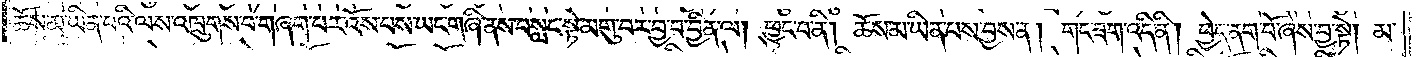ཆོས་མ་ཡིན་པའི་ལས་འཁྲུགས་པ་གཞག་པར་འོས་པས་ཡང་གཞི་ནས་བསླང་སྟེ་མགུ་བར་བྱ་བ་བྱིན་ལ། ཕྱུང་བ་ནི། ཆོས་མ་ཡིན་པས་བྱས་ན། གང་ཟག་འདི་ནི། ཕྱེད་ནག་པོ་ཞེས་བྱ་སྟེ། མ་
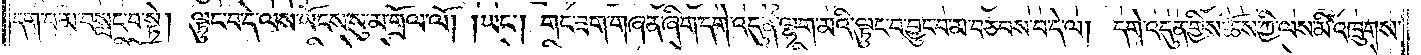དག་པ་མ་བསླང་བ་སྟེ། ལྟུང་བ་དེ་ལས་ཡོངས་སུ་མ་གྲོལ་ལོ། །ཡང༌། གང་ཟག་གཞན་ཞིག་དགེ་འདུན་ལྷག་མའི་ལྟུང་བ་བྱུང་བ་མ་བཅབས་པ་དེ་ལ། དགེ་འདུན་གྱིས་ཆོས་ཀྱི་ལས་མི་འཁྲུགས་
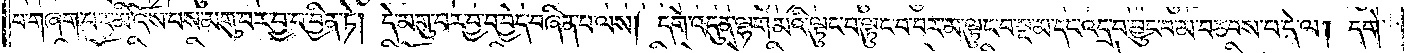པ་གཞག་པར་མི་འོས་པས་མགུ་བར་བྱ་བ་བྱིན་ཏེ། དེ་མགུ་བར་བྱ་བ་བྱེད་བཞིན་པ་ལས། དགེ་འདུན་ལྷག་མའི་ལྟུང་བ་ལྟུང་བ་བར་མ་ལྟུང་བ་སྔ་མ་དང་འདྲ་བ་བྱུང་བ་མ་བཅབས་པ་དེ་ལ། དགེ་
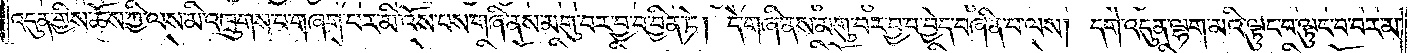འདུན་གྱིས་ཆོས་ཀྱི་ལས་མི་འཁྲུགས་པ་གཞག་པར་མི་འོས་པས་གཞི་ནས་མགུ་བར་བྱ་བ་བྱིན་ཏེ། དེ་གཞི་ནས་མགུ་བར་བྱ་བ་བྱེད་བཞིན་པ་ལས། དགེ་འདུན་ལྷག་མའི་ལྟུང་བ་ལྟུང་བ་བར་མ་
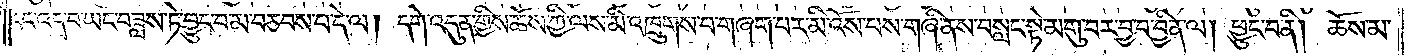དང་འདྲ་བ་ཡང་བཟླས་ཏེ་བྱུང་བ་མ་བཅབས་པ་དེ་ལ། དགེ་འདུན་གྱིས་ཆོས་ཀྱི་ལས་མི་འཁྲུགས་པ་གཞག་པར་མི་འོས་པས་གཞི་ནས་བསླང་སྟེ་མགུ་བར་བྱ་བ་ཡིན་ལ། ཕྱུང་བ་ནི། ཆོས་མ་
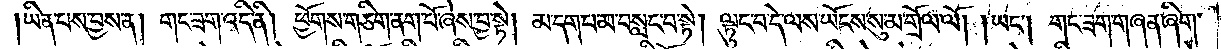།ཡིན་པས་བྱས་ན། གང་ཟག་འདི་ནི། ཕྱོགས་གཅིག་ནག་པོ་ཞེས་བྱ་སྟེ། མ་དག་པ་མ་བསླང་བ་སྟེ། ལྟུང་བ་དེ་ལས་ཡོངས་སུ་མ་གྲོལ་ལོ། །ཡང༌། གང་ཟག་གཞན་ཞིག་
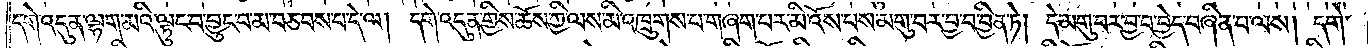དགེ་འདུན་ལྷག་མའི་ལྟུང་བ་བྱུང་བ་མ་བཅབས་པ་དེ་ལ། དགེ་འདུན་གྱིས་ཆོས་ཀྱི་ལས་མི་འཁྲུགས་པ་གཞག་པར་མི་འོས་པས་མགུ་བར་བྱ་བ་བྱིན་ཏེ། དེ་མགུ་བར་བྱ་བ་བྱེད་བཞིན་པ་ལས། དགེ་
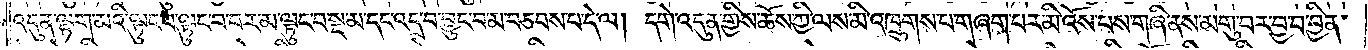འདུན་ལྷག་མའི་ལྟུང་བ་ལྟུང་བ་བར་མ་ལྟུང་བ་སྔ་མ་དང་འདྲ་བ་བྱུང་བ་མ་བཅབས་པ་དེ་ལ། དགེ་འདུན་གྱིས་ཆོས་ཀྱི་ལས་མི་འཁྲུགས་པ་གཞག་པར་མི་འོས་པས་གཞི་ནས་མགུ་བར་བྱ་བ་བྱིན་
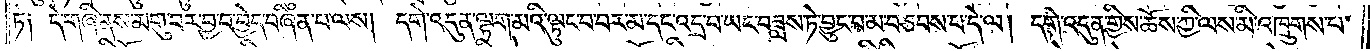ཏེ༑ དེ་གཞི་ནས་མགུ་བར་བྱ་བ་བྱེད་བཞིན་པ་ལས། དགེ་འདུན་ལྷག་མའི་ལྟུང་བ་བར་མ་དང་འདྲ་བ་ཡང་བཟླས་ཏེ་བྱུང་བ་མ་བཅབས་པ་དེ་ལ། དགེ་འདུན་གྱིས་ཆོས་ཀྱི་ལས་མི་འཁྲུགས་པ་
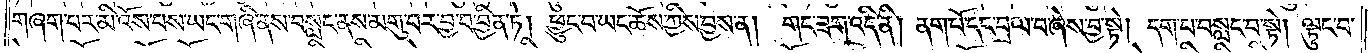གཞག་པར་མི་འོས་པས་ཡང་གཞི་ནས་བསླང་ནས་མགུ་བར་བྱ་བ་བྱིན་ཏེ། ཕྱུང་བ་ཡང་ཆོས་ཀྱིས་བྱས་ན། གང་ཟག་འདི་ནི། ནག་པོ་དང་བྲལ་བ་ཞེས་བྱ་སྟེ། དག་པ་བསླང་བ་སྟེ། ལྟུང་བ་
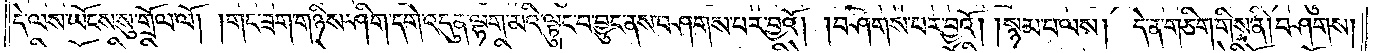དེ་ལས་ཡོངས་སུ་གྲོལ་ལོ། །གང་ཟག་གཉིས་ཤིག་དགེ་འདུན་ལྷག་མའི་ལྟུང་བ་བྱུང་ནས་བཤགས་པར་བྱའོ། །བཤགས་པར་བྱའོ། །སྙམ་པ་ལས། དེ་ན་གཅིག་གིས་ནི། བཤགས།
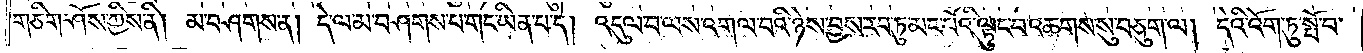གཅིག་ཤོས་ཀྱིས་ནི། མ་བཤགས་ན། དེ་ལ་མ་བཤགས་པ་གང་ཡིན་པ་དེ། འདུལ་བ་ལས་འགལ་བའི་ཉེས་བྱས་རབ་ཏུ་མང་པོའི་ལྟུང་བ་འཆགས་སུ་བཅུག་ལ། དེའི་འོག་ཏུ་སྤོ་བ་
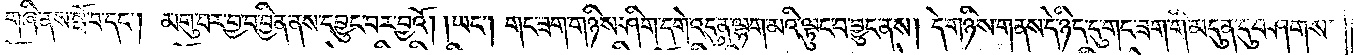གཞི་ནས་སྤོ་བ་དང༌། མགུ་བར་བྱ་བ་བྱིན་ནས་དབྱུང་བར་བྱའོ། །ཡང༌། གང་ཟག་གཉིས་ཤིག་དགེ་འདུན་ལྷག་མའི་ལྟུང་བ་བྱུང་ནས། དེ་གཉིས་གནས་དེ་ཉིད་དུ་གང་ཟག་གི་མདུན་དུ་བཤགས་
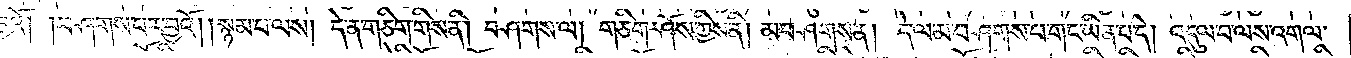པར་བྱའོ། །བཤགས་པར་བྱའོ། །སྙམ་པ་ལས། དེ་ན་གཅིག་གིས་ནི། བཤགས་ལ། གཅིག་ཤོས་ཀྱིས་ནི། མ་བཤགས་ན། དེ་ལ་མ་བཤགས་པ་གང་ཡིན་པ་དེ། འདུལ་བ་ལས་འགལ་
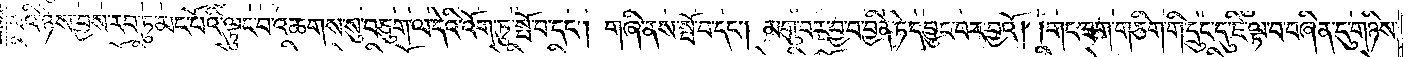བའི་ཉེས་བྱས་རབ་ཏུ་མང་པོའི་ལྟུང་བ་འཆགས་སུ་བཅུག་ལ་དེའི་འོག་ཏུ་སྤོ་བ་དང༌། གཞི་ནས་སྤོ་བ་དང༌། མགུ་བར་བྱ་བ་བྱིན་ཏེ་དབྱུང་བར་བྱའོ། །གང་ཟག་གཅིག་གི་དྲུང་དུ་ཇི་ལྟ་བ་བཞིན་དུ་གཉིས་
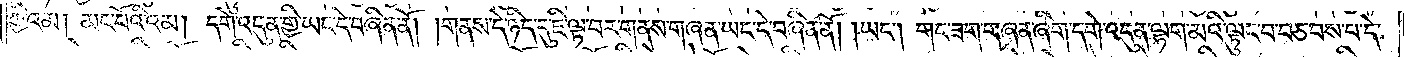ཀྱི་འམ། མང་པོའི་འམ། དགེ་འདུན་གྱི་ཡང་དེ་བཞིན་ནོ། །གནས་དེ་ཉིད་དུ་ཇི་ལྟ་བར་གནས་གཞན་ཡང་དེ་བཞིན་ནོ། །ཡང༌། གང་ཟག་གཞན་ཞིག་དགེ་འདུན་ལྷག་མའི་ལྟུང་བ་བཅབས་པ་དེ་
